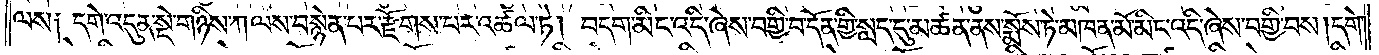ལས༑ དགེ་འདུན་སྡེ་གཉིས་ཀ་ལས་བསྙེན་པར་རྫོགས་པར་འཚལ་ཏེ། བདག་མིང་འདི་ཞེས་བགྱི་བ་དོན་གྱི་སླད་དུ་མཚན་ནས་སྨྲོས་ཏེ་མཁན་མོ་མིང་འདི་ཞེས་བགྱི་བས་།དགེ་
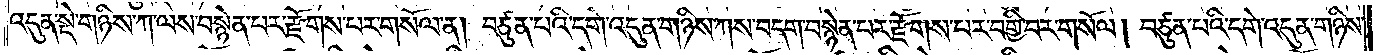འདུན་སྡེ་གཉིས་ཀ་ལས་བསྙེན་པར་རྫོགས་པར་གསོལ་ན། བཙུན་པའི་དགེ་འདུན་གཉིས་ཀས་བདག་བསྙེན་པར་རྫོགས་པར་བགྱི་བར་གསོལ། བཙུན་པའི་དགེ་འདུན་གཉིས་
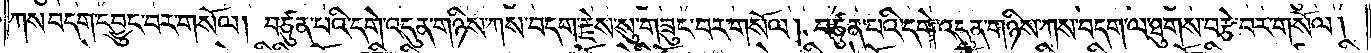ཀས་བདག་དབྱུང་བར་གསོལ། བཙུན་པའི་དགེ་འདུན་གཉིས་ཀས་བདག་རྗེས་སུ་གཟུང་བར་གསོལ། བཙུན་པའི་དགེ་འདུན་གཉིས་ཀས་བདག་ལ་ཐུགས་བརྩེ་བར་གསོལ།
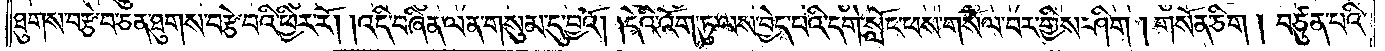ཐུགས་བརྩེ་བ་ཅན་ཐུགས་བརྩེ་བའི་ཕྱིར་རོ། །འདི་བཞིན་ལན་གསུམ་དུ་བྱའོ། །དེའི་འོག་ཏུ་ལས་བྱེད་པའི་དགེ་སློང་ཕས་གསོལ་བར་གྱིས་ཤིག །གསོན་ཅིག །བཙུན་པའི་
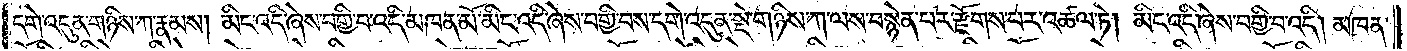དགེ་འདུན་གཉིས་ཀ་རྣམས། མིང་འདི་ཞེས་བགྱི་བ་འདི་མཁན་མོ་མིང་འདི་ཞེས་བགྱི་བས་དགེ་འདུན་སྡེ་གཉིས་ཀ་ལས་བསྙེན་པར་རྫོགས་པར་འཚལ་ཏེ། མིང་འདི་ཞེས་བགྱི་བ་འདི། མཁན་
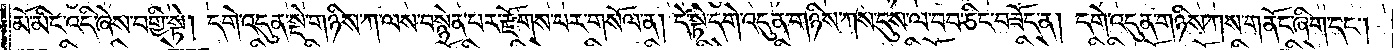མོ་མིང་འདི་ཞེས་བགྱི་སྟེ། དགེ་འདུན་སྡེ་གཉིས་ཀ་ལས་བསྙེན་པར་རྫོགས་པར་གསོལ་ན། དེ་སྟེ་དགེ་འདུན་གཉིས་ཀས་དུས་ལ་བབ་ཅིང་བཟོད་ན། དགེ་འདུན་གཉིས་ཀས་གནོང་ཞིག་དང༌།
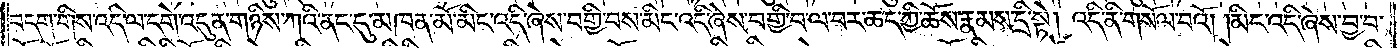བདག་གིས་འདི་ལ་དགེ་འདུན་གཉིས་ཀའི་ནང་དུ་མཁན་མོ་མིང་འདི་ཞེས་བགྱི་བས་མིང་འདི་ཞེས་བགྱི་བ་ལ་བར་ཆད་ཀྱི་ཆོས་རྣམས་དྲི་སྟེ། འདི་ནི་གསོལ་བའོ། །མིང་འདི་ཞེས་བྱ་བ་
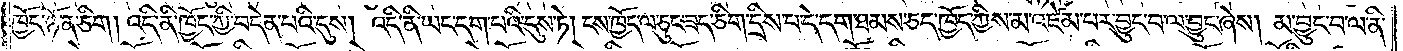ཁྱོད་ཉོན་ཅིག །འདི་ནི་ཁྱོད་ཀྱི་བདེན་པའི་དུས། འདི་ནི་ཡང་དག་པའི་དུས་ཏེ། ངས་ཁྱོད་ལ་ཅུང་ཟད་ཅིག་དྲིས་པ་དེ་དག་ཐམས་ཅད་ཁྱོད་ཀྱིས་མ་འཛེམ་པར་བྱུང་བ་ལ་བྱུང་ཞེས། མ་བྱུང་བ་ལ་ནི་
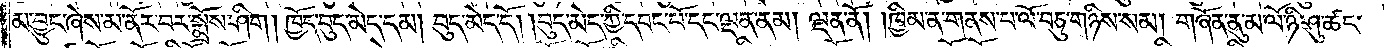མ་བྱུང་ཞེས་མ་ནོར་བར་སྨྲོས་ཤིག །ཁྱོད་བུད་མེད་དམ། བུད་མེད་དོ། །བུད་མེད་ཀྱི་དབང་པོ་དང་ལྡན་ནམ། ལྡན་ནོ། །ཁྱིམ་ན་གནས་པ་ལོ་བཅུ་གཉིས་སམ། གཞོན་ནུ་མ་ལོ་ཉི་ཤུ་ཚང་
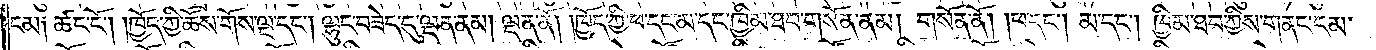ངམ། ཚང་ངོ༌། །ཁྱོད་ཀྱི་ཆོས་གོས་ལྔ་དང༌། ལྷུང་བཟེད་དུ་ལྡན་ནམ། ལྡན་ནོ། །ཁྱོད་ཀྱི་ཕ་དང་མ་དང་ཁྱིམ་ཐབ་གསོན་ནམ། གསོན་ནོ། །ཕ་དང༌། མ་དང༌། ཁྱིམ་ཐབ་ཀྱིས་གནང་ངམ་
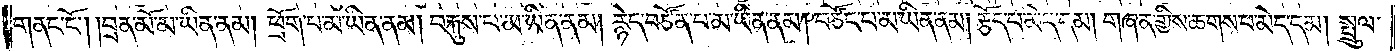གནང་ངོ༌། །བྲན་མོ་མ་ཡིན་ནམ། ཕྲོག་པ་མ་ཡིན་ནམ། བརྐུས་པ་མ་ཡིན་ནམ། རྙེད་བཙོན་པ་མ་ཡིན་ནམ། བཙོང་པ་མ་ཡིན་ནམ། རྩོད་པ་མེད་དམ། གཞན་གྱིས་ཆགས་པ་མེད་དམ། སྤྲུལ་
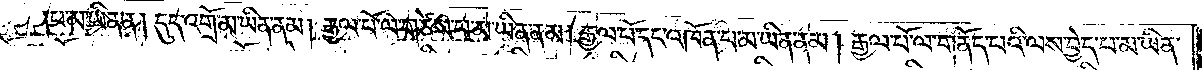པ་མ་ཡིན་ན། དུད་འགྲོ་མ་ཡིན་ནམ། རྒྱལ་པོ་ལ་གཙེས་པ་མ་ཡིན་ནམ། རྒྱལ་པོ་དང་འཁོན་པ་མ་ཡིན་ནམ། རྒྱལ་པོ་ལ་གནོད་པའི་ལས་བྱེད་པ་མ་ཡིན་
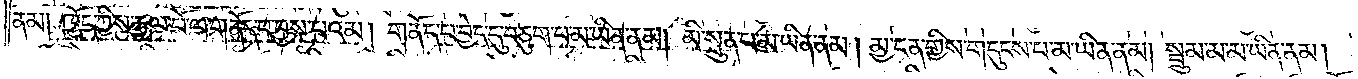ནམ། ཁྱོད་ཀྱིས་རྒྱལ་པོ་ལ་གནོད་པ་བྱས་པའམ། གནོད་པ་བྱེད་དུ་བཅུག་པ་མ་ཡིན་ནམ། མི་སྲུན་པ་མ་ཡིན་ནམ། མྱ་ངན་གྱིས་གདུངས་པ་མ་ཡིན་ནམ། སྦྲུམ་མ་མ་ཡིན་ནམ།
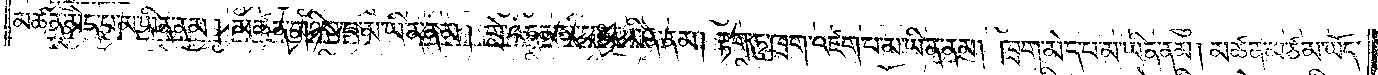མཚན་མེད་པ་མ་ཡིན་ནམ། མཚན་གཉིས་པ་མ་ཡིན་ནམ། གླེ་(འདམས་པ)་མ་ཡིན་ནམ། རྟག་ཏུ་ཁྲག་འཛག་པ་མ་ཡིན་ནམ། ཁྲག་མེད་པ་མ་ཡིན་ནམ། མཚན་མ་ཙམ་ཡོད་
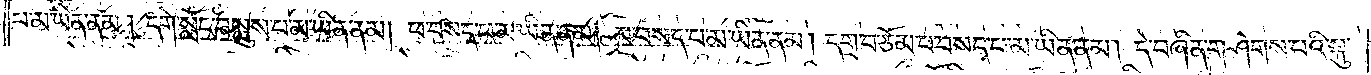པ་མ་ཡིན་ནམ། དགེ་སློང་བསླུས་པ་མ་ཡིན་ནམ། ཕ་བསད་པ་མ་ཡིན་ནམ། མ་བསད་པ་མ་ཡིན་ནམ། དགྲ་བཅོམ་པ་བསད་པ་མ་ཡིན་ནམ། དེ་བཞིན་གཤེགས་པའི་སྐུ་
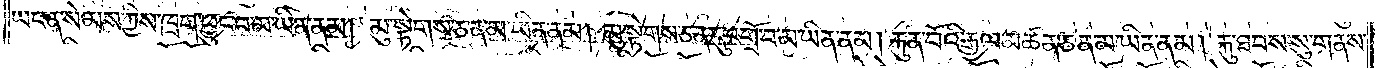ཡང་ན་སེམས་ཀྱིས་ཁྲག་ཕྱུང་བ་མ་ཡིན་ནམ། མུ་སྟེགས་ཅན་མ་ཡིན་ནམ། མུ་སྟེགས་ཅན་དུ་འགྲོ་བ་མ་ཡིན་ནམ། རྐུན་བོའི་རྒྱལ་མཚན་ཅན་མ་ཡིན་ནམ། རྐུ་ཐབས་སུ་གནས་
